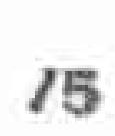15
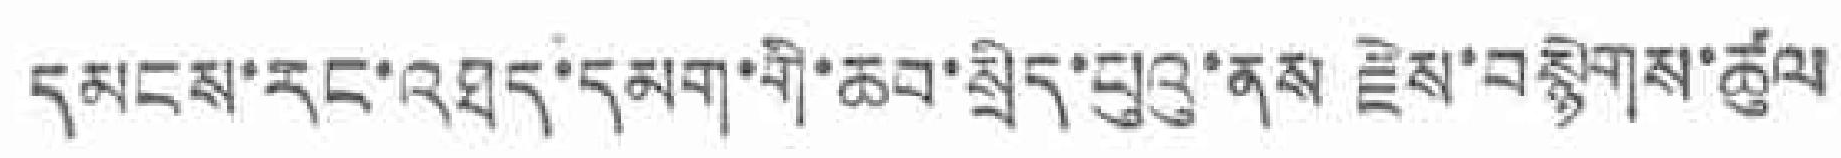དམངས་རང་འཐད་དམག་གྱི་ཆབ་སྲིད་པུའུ་ནས རྗེས་བསྙེགས་ཚུལ
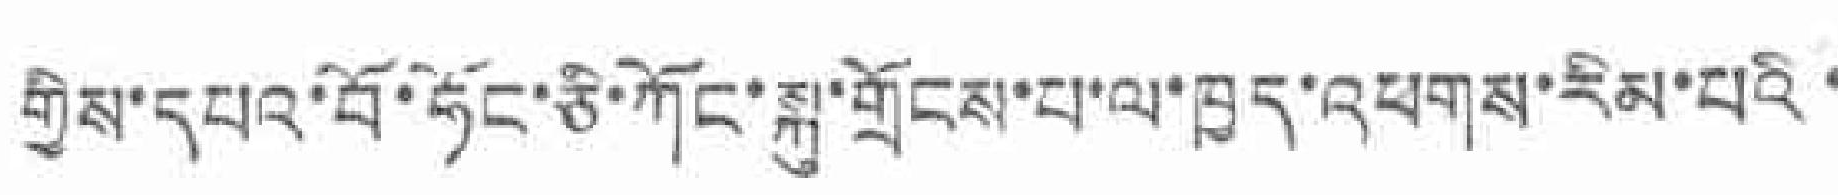གྱིས་དཔའ་བོ་ཧོང་ཅི་ཀོང་སྐུ་གྲོངས་པ་ལ་ཁྱད་འཕགས་རིམ་པའི་
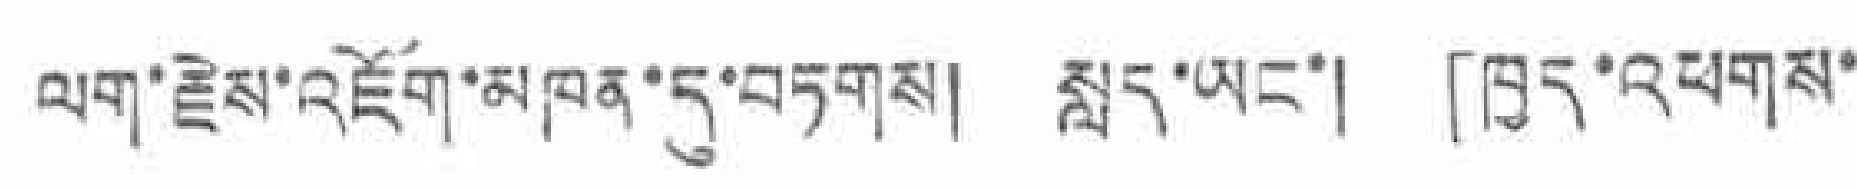ལག་རྗེས་འཇོག་མཁན་དུ་བཏགས། སླར་ཡང་། 「ཁྱད་འཕགས་
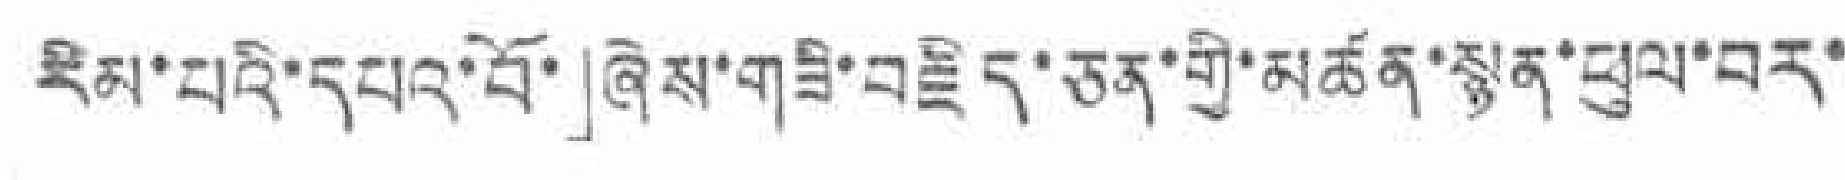རིམ་པའི་དཔའ་བོ་」ཞེས་གཟི་བརྗིད་ཅན་གྱི་མཚན་སྙན་ཕུལ་བར་
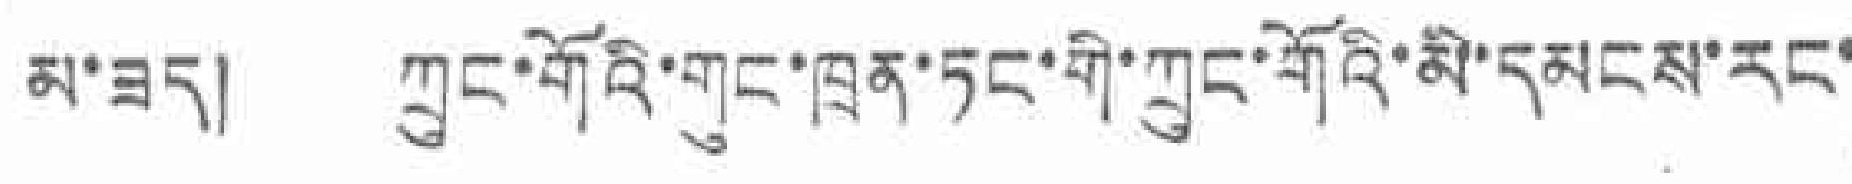མ་ཟད། ཀྲུང་གོའི་གུང་ཁྲན་ཏང་གི་ཀྲུང་གོའི་མི་དམངས་རང་
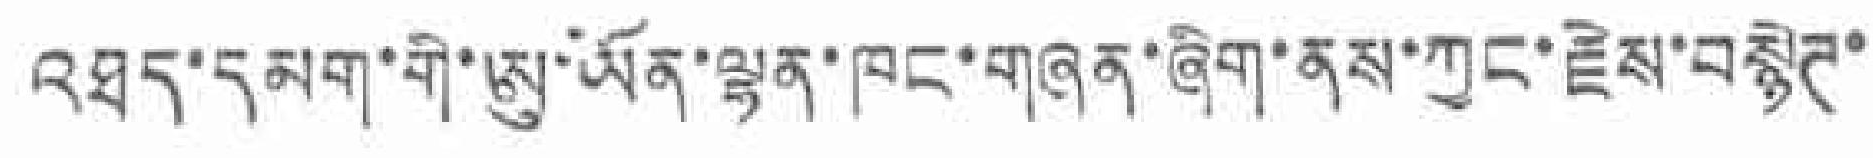འཐད་དམག་གི་ཨུ་ཡོན་ལྷན་ཁང་གཞན་ཞིག་ནས་ཀྱང་རྗེས་བསྙེཊ་
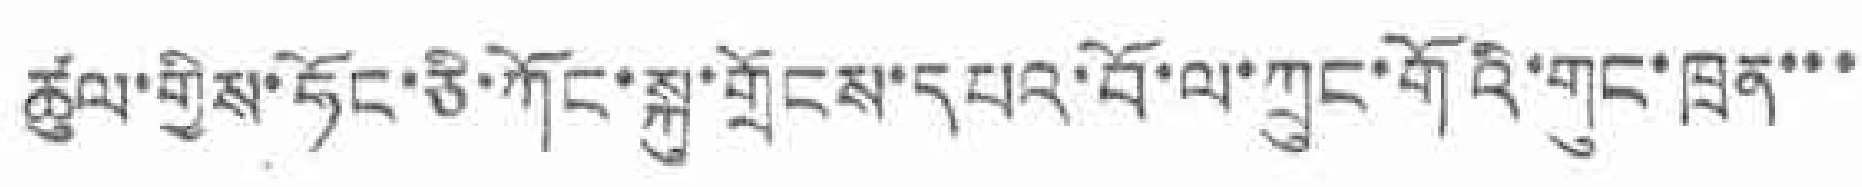ཚུལ་གྱིས་ཧོང་ཅི་ཀོང་སྐུ་གྲོངས་དཔའ་བོ་ལ་ཀྲུང་གོའི་གུང་ཁྲན་་་
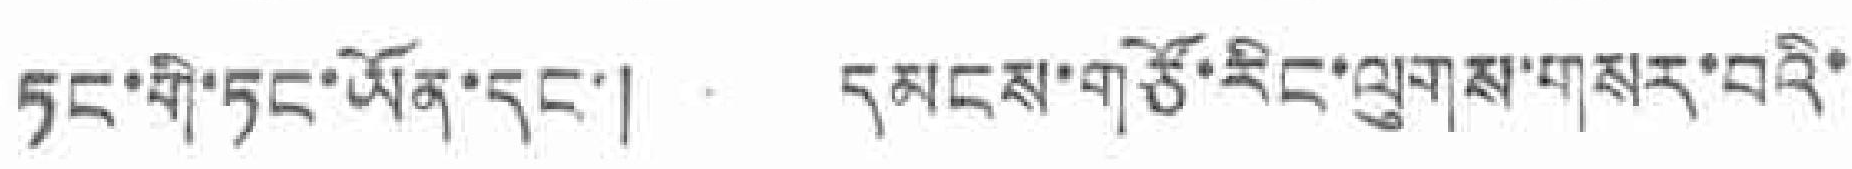ཏང་གི་ཏང་ཡོན་དང་། དམངས་གཙོ་རིང་ལུགས་གསར་བའི་
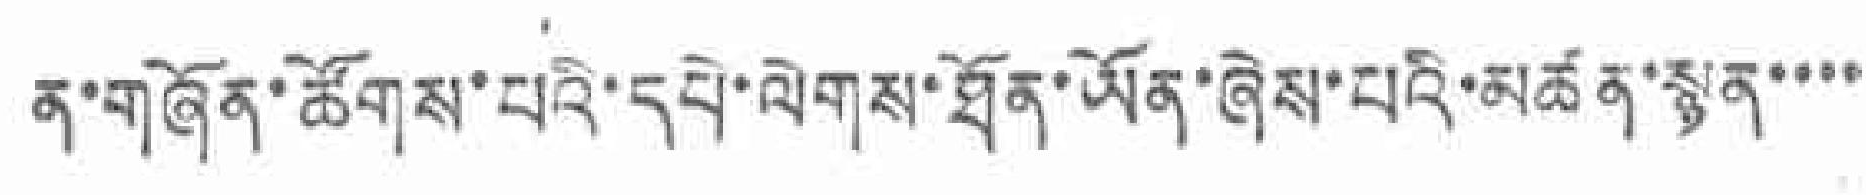ན་གཞོན་ཚོགས་པའི་དཔེ་ལེགས་ཐོན་ཡོན་ཞེས་པའི་མཚན་སྙན་་་་
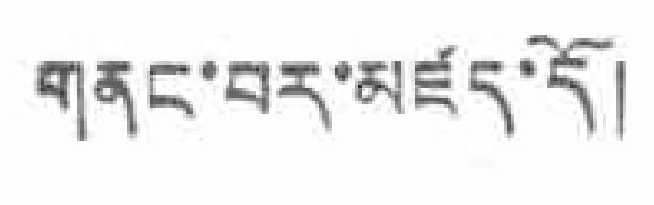གནང་བར་མཛད་དོ།
